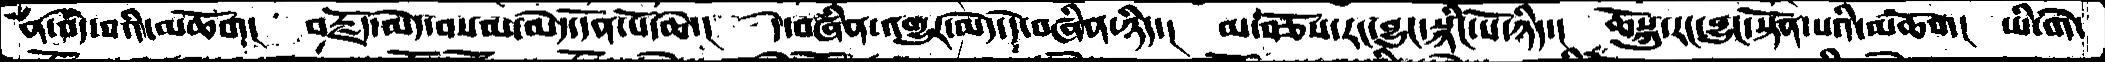ན་བདེ་བའི་མཆོག།  བརྗོད་མེད་བསམ་མེད་དོན་པོ་ཆེ་།  དེ་བཞིན་འགྱུར་མེད་དེ་བཞིན་ཉིད་།  མ་བཅོས་རང་བྱུང་སྙིང་པོ་ཉིད་།  ཆོསྐུ་རང་བྱུང་སྟོན་པའི་མཆོག།  ཡི་གེ་
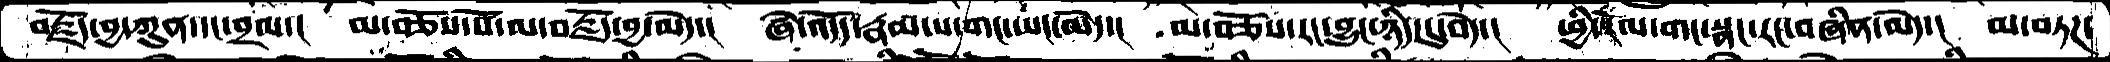བརྗོད་བྱ་ཀུན་དང་བྲལ་།  མ་བཅོས་པོ་ལ་བརྗོད་བྱ་མེད་།  ཞེ་འདོད་རྣམ་པ་གང་ཡང་མེད་།  མ་བཅོས་རང་བྱུང་ཉིད་དུ་བདེ་།  ཕྱི་རོལ་གང་སྣང་རང་བཞིན་མེད་།  མ་བཏཌ་
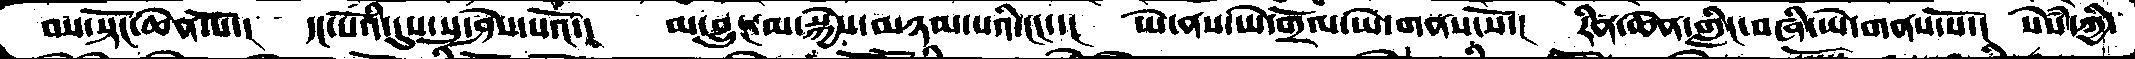བས་སྟོང་ཆེན་པོ་།  དང་པོའི་དུས་སུ་ཤེས་པའོ་།  མ་བྱུང་མ་སྐྱེས་མཉམ་པའི་་ངང་་།  ཡེ་ནས་ཡེ་གྲོལ་ཡེ་གནས་སོ་།  རིན་ཆེན་གླིང་བཞི་ཡེ་གནས་སོ་།  སེཾས་ཀྱི་
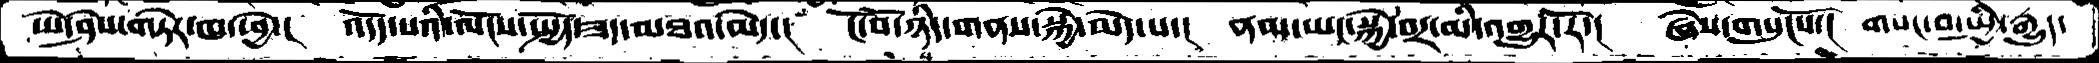ཡེ་ཤེས་གཏེར་ཁ་ཕྱེ་། འདོད་པའི་ལོངས་སྤྱོད་ཟད་མཐའ་མེད་།  ངོ་བོ་ཉིད་གནས་སྐྱེ་མེད་པ་།  ནམ་ཡང་སྐྱེ་བར་མི་འགྱུར་རོ་།  ཞེས་གསུངསོ་།  གསང་བ་སྤྱི་རྒྱུད་
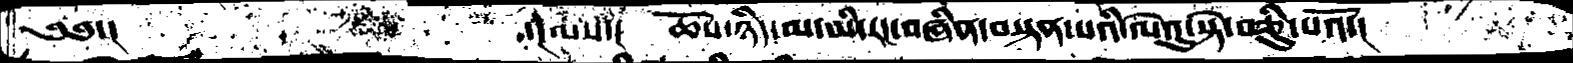༄༅་།                 ་།ལས་།  ཆོས་ཉིད་མ་ཡི་རང་བཞིན་བསྟན་པའི་ལེའུ་སྟེ་བཅིུ་པའོ་།
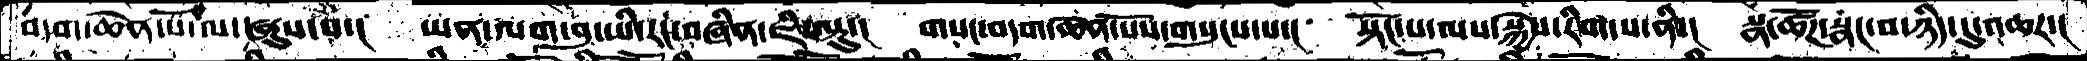བདག་ཆེན་པོ་ལ་ཞུས་པ་།  ཡན་ལག་བུ་ཡི་རང་བཞིན་ཇི་ལྟུ་།  གསང་བདག་ཆེན་པོས་གསུངས་པ་།  སྟོང་པ་ལས་སྐྱེས་རིག་པ་ནི་།  སྣ་ཚོཌ་སྣང་བ་ཉིད་དུ་འཆར་།
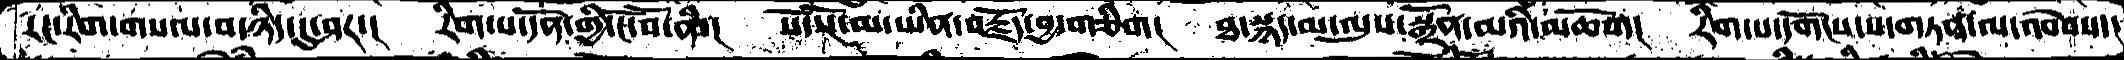རང་རིག་གསལ་བ་ཉིད་དུ་ཤར་།  རིག་པ་དོན་གྱི་ངོ་བོ་ནི་།  སོ་སོ་མ་ཡིན་བརྗོད་བྱ་གཅིག་།  ཐ་སྙད་མ་ལུས་སྒྲོན་མའི་མཆོག།  རིག་པ་དགོངས་པ་གཏན་ལ་འབེབས་།
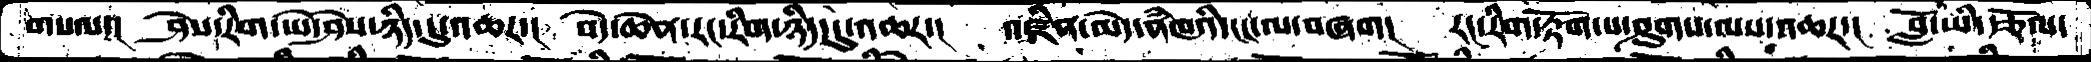གསལ་།  ཤེས་རིག་ཡེ་ཤེས་ཉིད་དུ་འཆར་།  བདེ་ཆེན་རང་རིག་ཉིད་དུ་འཆར་།  འཛིན་མེད་ནཾཁའི་ངང་ལ་བཞག།  རང་རིག་རྟོག་པ་ཤུགས་ལས་འཆར་།  བློ་ཡི་རྩོལ་
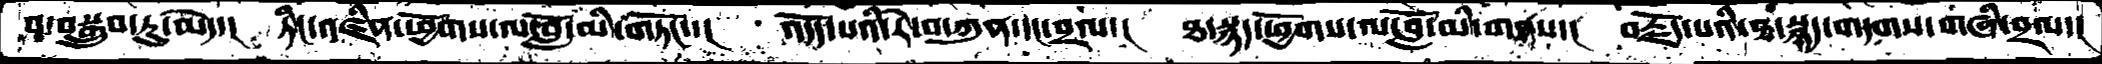བ་བསྒྲུབ་ཏུ་མེད་།  ཏིང་འཛིན་ཕྱོགས་ལ་བློ་མི་གཏོང་་།  འདོད་པའི་རེ་བ་ཀུན་དང་བྲལ་།  ཐ་སྙད་ཕྱོགས་ལ་བློ་མི་གནས་།  བརྗོད་པའི་ཐ་སྙད་གདགས་གཞི་བྲལ་།
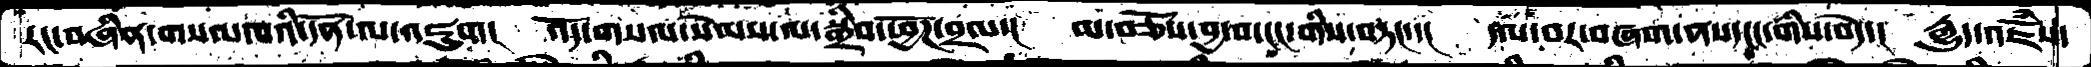རང་བཞིན་གསལ་བའི་དོན་ལ་འཇུག།  འོད་གསལ་སེམས་ལ་སྒྲིབ་ཕྱོཌ་བྲལ་།  མ་བཅོས་བྱ་བ་ངང་གིས་བཏང་་།  དལ་བར་བཞག་ནས་ངང་གིས་བདེ་།  རྒྱུད་འཇོཾས་
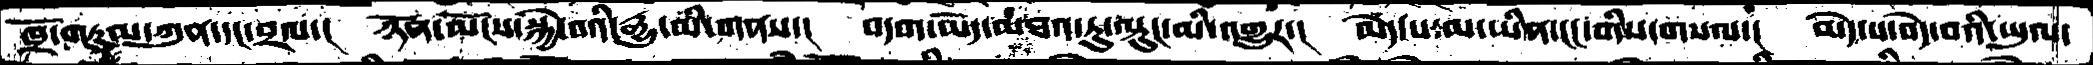ཁྲོ་གཏུམ་ཀུན་དང་བྲལ་།  ཉོན་མོངས་སྐྱེ་བའི་རྒྱུ་མི་གནས་།  བདག་མེད་མཐའ་རུ་ལྟུང་མི་འགྱུར་།  མེད་པ་མ་ཡིན་ངང་གིས་གསལ་།  མེད་པ་བདེ་བའི་ཡུལ་
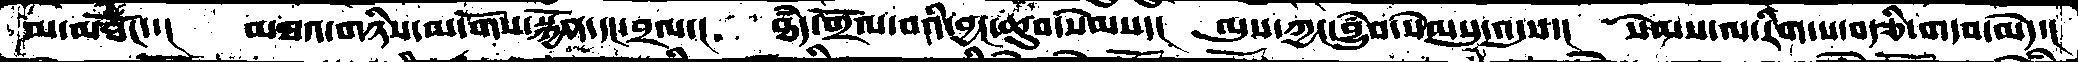མ་མཐོང་་།   མཐའ་གཉིས་མ་གོས་སྐྱོན་དང་བྲལ་།  ཐཾད་གྲོལ་བའི་བྱང་ཆུབ་སེམས་།  ལུས་ཀྱང་བྱུཾབ་སེམསུ་འདུས་།  སེམས་ལ་རིག་པ་བརྩི་གདབ་མེད་།
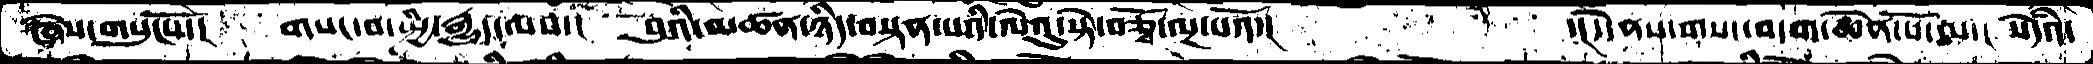ཞེས་གསུངསོ་།   གསང་བ་སྤྱི་རྒྱུད་ལས་།   བུའི་མཚན་ཉིད་བསྟན་པའི་ལེའུ་སྟེ་བཅྭོ་ལྔ་པའོ་།      ་།དེ་ནས་གསང་བདག་ཆེན་པོ་ལ་།  སེདཾའ་
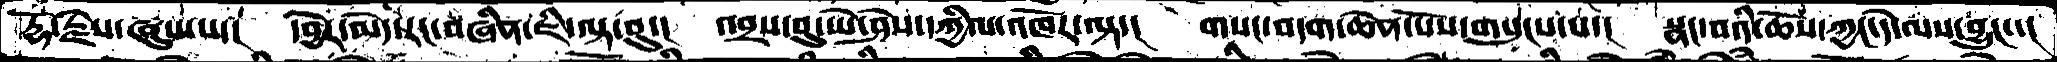རྡོ་རྗེས་ཞུས་པ་།  དབྱེར་མེད་རང་བཞིན་ཇི་ལྟ་བུ་།   འབྲས་བུ་ཡེ་ཤེས་དཀྱིལ་འཁོར་ལྟ་།  གསང་བདག་ཆེན་པོས་གསུངས་པ་།  སྣང་བའི་ཆོས་ཀྱང་དེ་ལས་བྱུང་་།
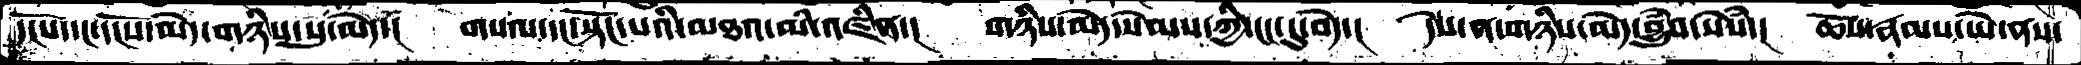དངོས་དང་དངོས་མེད་གཉིས་སུ་མེད་།   གསལ་དང་སྟོང་པའི་མཐའ་མི་འཛིན་།  གཉིས་མེད་སེམས་ཀྱི་ངང་དུ་བདེ་།  དེས་ན་གཉིས་མེད་བྱུཾབ་སེཾས་།  ཆོས་རྣམས་ཡེ་ནས་
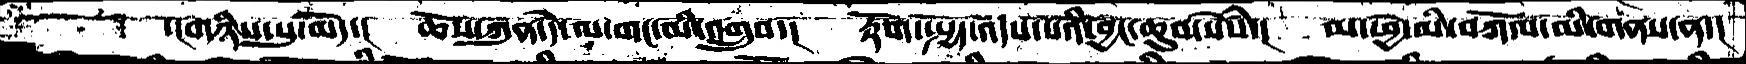་།གཉིས་སུ་མེད་།  ཆོས་ཀུན་དེ་ལ་གང་མི་འགྲུབ་།  རྟོག་སྤྱོད་འདས་པའི་བྱང་ཆུབ་སེཾས་།  མ་ཕྱེ་མི་བཀོལ་མི་གནས་ན་།
